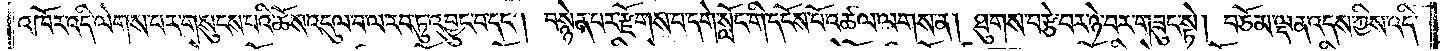འཁོར་འདི་ལེགས་པར་གསུངས་པའི་ཆོས་འདུལ་བ་ལ་རབ་ཏུ་འབྱུང་བ་དང༌། བསྙེན་པར་རྫོགས་པ་དགེ་སློང་གི་དངོས་པོ་འཚལ་ལགས་ན། ཐུགས་བརྩེ་བར་ཉེ་བར་གཟུང་སྟེ། བཅོམ་ལྡན་འདས་ཀྱིས་འདི་
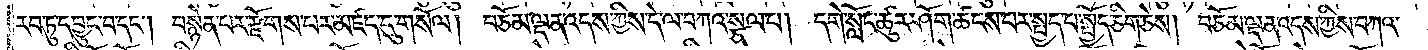རབ་ཏུ་དབྱུང་བ་དང༌། བསྙེན་པར་རྫོགས་པར་མཛད་དུ་གསོལ། བཅོམ་ལྡན་འདས་ཀྱིས་དེ་ལ་བཀའ་སྩལ་པ། དགེ་སློང་ཚུར་ཤོག་ཚངས་པར་སྤྱད་པ་སྤྱོད་ཅིག་ཅེས། བཅོམ་ལྡན་འདས་ཀྱིས་བཀའ་
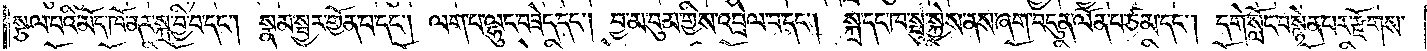སྩལ་པའི་མོད་ཁོ་ནར་སྐྲ་བྱི་བ་དང༌། སྣམ་སྦྱར་གྱོན་པ་དང༌། ལག་པ་ལྷུང་བཟེད་དང༌། བྱ་མ་བུམ་གྱིས་འབྲེལ་བ་དང༌། སྐྲ་དང་ཁ་སྤུ་སྐྱེས་ནས་ཞག་བདུན་ལོན་པ་ཙམ་དང༌། དགེ་སློང་བསྙེན་པར་རྫོགས་
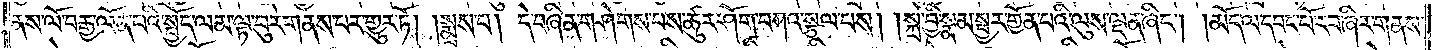ནས་ལོ་བརྒྱ་ལོན་པའི་སྤྱོད་ལམ་ལྟ་བུར་གནས་པར་གྱུར་ཏོ། །སྨྲས་པ། དེ་བཞིན་གཤེགས་པས་ཚུར་ཤོག་བཀའ་སྩལ་པས། །སྐྲ་བྱི་སྣམ་སྦྱར་གྱོན་པའི་ལུས་ལྡན་ཞིང༌། །མོད་ལ་དབང་པོ་རབ་ཞིར་གནས་
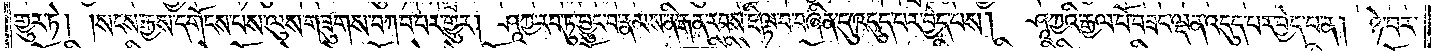གྱུར་ཏེ། སངས་རྒྱས་དགོངས་པས་ལུས་གཟུགས་བཀབ་པར་གྱུར། ཤཱཀྱ་རབ་ཏུ་བྱུང་བ་རྣམས་ནི་རྒན་རབས་ཇི་ལྟ་བ་བཞིན་དུ་འདུད་པར་བྱེད་པས། ཤཱཀྱའི་རྒྱལ་པོ་བཟང་ལྡན་འདུད་པར་བྱེད་པ་ན། ཉེ་བར་
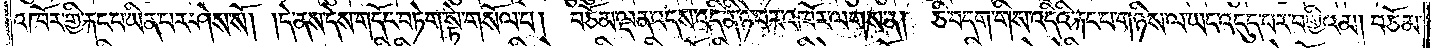འཁོར་གྱི་རྐང་པ་ཡིན་པར་ཤེས་སོ། །དེ་ནས་དེས་གདོང་བཏེག་སྟེ་གསོལ་པ། བཅོམ་ལྡན་འདས་འདི་ནི་ཉེ་བར་འཁོར་ལགས་ན། ཅི་བདག་གིས་འདིའི་རྐང་པ་གཉིས་ལ་ཡང་འདུད་པར་བགྱིའམ། བཅོམ་
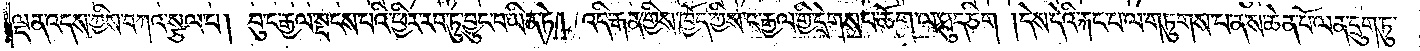ལྡན་འདས་ཀྱིས་བཀའ་སྩལ་པ། བུ་ང་རྒྱལ་སྤངས་པའི་ཕྱིར་རབ་ཏུ་བྱུང་བ་ཡིན་ཏེ། འདི་རྒན་གྱིས་ཁྱོད་ཀྱིས་ང་རྒྱལ་གྱི་དྲེགས་པ་ཆོག་ལ་ཐུད་ཅིག །དེས་དེའི་རྐང་པ་ལ་གཏུགས་པ་ན་ས་ཆེན་པོ་ལན་དྲུག་ཏུ་
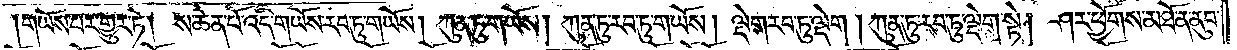གཡོས་པར་གྱུར་ཏེ། ས་ཆེན་པོ་འདི་གཡོས་རབ་ཏུ་གཡོས། ཀུན་ཏུ་གཡོས། ཀུན་ཏུ་རབ་ཏུ་གཡོས། ལྡེག་རབ་ཏུ་ལྡེག །ཀུན་ཏུ་རབ་ཏུ་ལྡེག་སྟེ། ཤར་ཕྱོགས་མཐོ་ན་ནུབ་
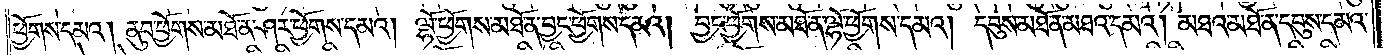ཕྱོགས་དམའ། ནུབ་ཕྱོགས་མཐོ་ན་ཤར་ཕྱོགས་དམའ། ལྷོ་ཕྱོགས་མཐོ་ན་བྱང་ཕྱོགས་དམའ། བྱང་ཕྱོགས་མཐོ་ན་ལྷོ་ཕྱོགས་དམའ། དབུས་མཐོ་ན་མཐའ་དམའ། མཐའ་མཐོ་ན་དབུས་དམའ་
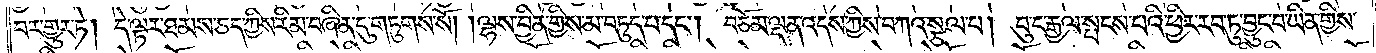བར་གྱུར་ཏེ། དེ་ལྟར་ཐམས་ཅད་ཀྱིས་རིམ་བཞིན་དུ་གཏུགས་སོ། །ལྷས་བྱིན་གྱིས་མ་བཏུད་པ་དང༌། བཅོམ་ལྡན་འདས་ཀྱིས་བཀའ་སྩལ་པ། བུ་ང་རྒྱལ་སྤངས་པའི་ཕྱིར་རབ་ཏུ་བྱུང་བ་ཡིན་གྱིས་
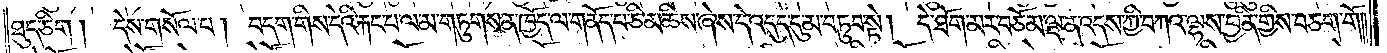ཐུད་ཅིག། དེས་གསོལ་པ། བདག་གིས་དེའི་རྐང་པ་ལ་མ་གཏུགས་ན་ཁྱོད་ལ་གནོད་པ་ཅི་མཆིས་ཞེས་དེ་འདུད་དུ་མ་བཏུབ་སྟེ། དེ་ཐོག་མར་བཅོམ་ལྡན་འདས་ཀྱི་བཀའ་ལྷས་བྱིན་གྱིས་བཅག་གོ༎
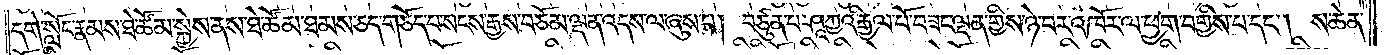དགེ་སློང་རྣམས་ཐེ་ཚོམ་སྐྱེས་ནས་ཐེ་ཚོམ་ཐམས་ཅད་གཅོད་པ་སངས་རྒྱས་བཅོམ་ལྡན་འདས་ལ་ཞུས་པ། བཙུན་པ་ཤཱཀྱའི་རྒྱལ་པོ་བཟང་ལྡན་གྱིས་ཉེ་བར་འཁོར་ལ་ཕྱག་བགྱིས་པ་དང༌། ས་ཆེན་
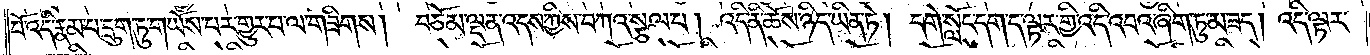པོ་འདི་རྣམ་པ་དྲུག་ཏུ་གཡོས་པར་གྱུར་པ་ལ་གཟིགས། བཅོམ་ལྡན་འདས་ཀྱིས་བཀའ་སྩལ་པ། འདི་ནི་ཆོས་ཉིད་ཡིན་ཏེ། དགེ་སློང་དག་ད་ལྟར་གྱི་འདི་འབའ་ཞིག་ཏུ་མ་ཟད། འདི་ལྟར་
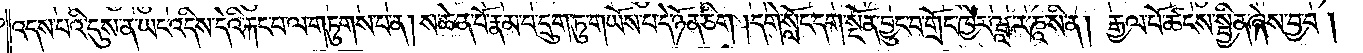འདས་པའི་དུས་ན་ཡང་འདིས་དེའི་རྐང་པ་ལ་གཏུགས་པ་ན། ས་ཆེན་པོ་རྣམ་པ་དྲུག་ཏུ་གཡོས་པ་དེ་ཉོན་ཅིག །དགེ་སློང་དག་སྔོན་བྱུང་བ་གྲོང་ཁྱེར་ཝཱ་ར་ཎཱ་སི་ན། རྒྱལ་པོ་ཚངས་སྦྱིན་ཞེས་བྱ་བ།
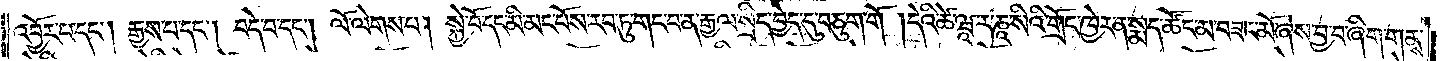འབྱོར་པ་དང༌། རྒྱས་པ་དང༌། བདེ་བ་དང༌། ལོ་ལེགས་པ། སྐྱེ་བོ་དང་མི་མང་པོས་རབ་ཏུ་གང་བ་ན་རྒྱལ་སྲིད་བྱེད་དུ་བཅུག་གོ །དེའི་ཚེ་ཝཱ་ར་ཎཱ་སིའི་གྲོང་ཁྱེར་ན་སྨད་ཚོང་མ་བཟང་མོ་ཞེས་བྱ་བ་ཞིག་གནས་
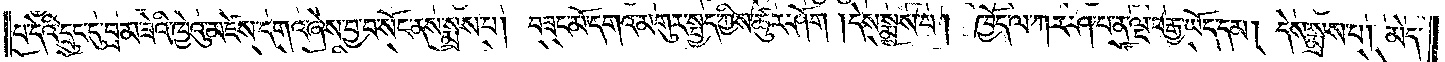པ་དེའི་དྲུང་དུ་བྲམ་ཟེའི་ཁྱེའུ་མཛེས་དགའ་ཞེས་བྱ་བ་སོང་ནས་སྨྲས་པ། བཟང་མོ་དགའ་མགུར་སྤྱད་ཀྱིས་ཚུར་ཤོག །དེས་སྨྲས་པ། ཁྱོད་ལ་ཀར་ཤ་པ་ན་ལྔ་བརྒྱ་ཡོད་དམ། དེས་སྨྲས་པ། མེད་
